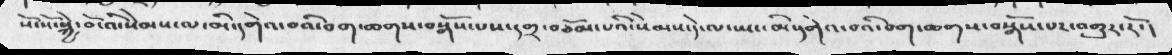སོ་སོ་སྐྱེ་བོ་འི་སེམས་ལ་མི་དགེའ་བའི་བག་ཆགས་བསྒོས་པས་དགྲ་བཅོམ་པའི་སེམས་དེ་ལ་ཡང་མི་དགེའ་བའི་བག་ཆགས་བསྒོས་པར་འགྱུར་རོ་།
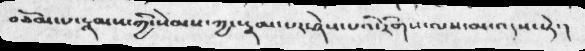བཅོམ་པ་རྣམས་ཀྱི་སེམས་ཀྱང་རྣམ་པར་ཤེས་པའི་རིགས་ལས་མ་འདས་སྟེ་།
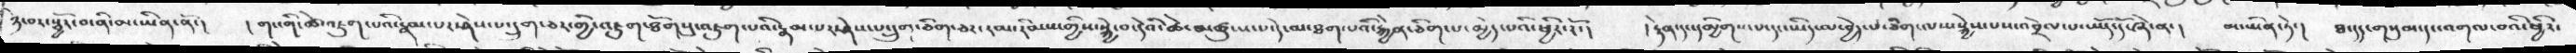ཉེ་བར་སྦྱོར་བ་ནི་མ་ཡིན་ནོ་།   ། གང་གི་ཚེ་འཇུག་པའི་རྣམ་པར་ཤེས་པ་དྲུག་ཅར་གྱི་འཇུག་ཐོགསུ་འཇུག་པའི་རྣམ་པར་ཤེས་པ་དྲུག་ཅིག་ཅར་ངམ་རིམས་གྱིས་སྐྱེ་བ་དེའི་ཆེ་བ་མཚུངས་པ་དེ་མ་ཐག་པའི་རྐྱེན་ཅིག་པ་མྱེད་པའི་ཕྱིར་རོ་།   ། རྟེན་དང་དམྱིགས་པ་དང་ཡིད་ལ་བྱེད་པ་ཅིག་ལས་སྐྱེས་པས་འབྲེལ་པ་ཡོད་དོ་ཞེ་ན་།   མ་ཡིན་ཏེ་།   ཐ་དད་གསུམ་དང་འགལ་བའི་ཕྱིར་
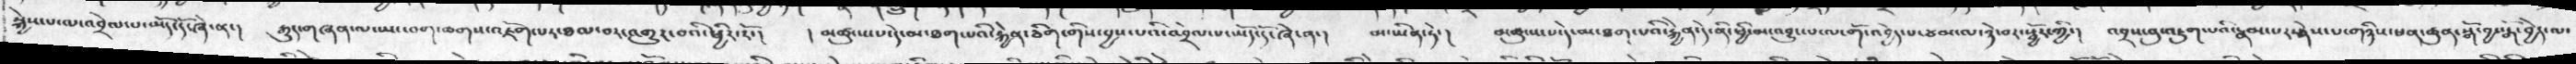སྐྱེས་པ་ལ་འབྲེལ་པ་མེད་དོ་ཞེ་ན་།   རྒྱུད་གཞན་ལ་ཡང་བག་ཆགས་འཇོག་པར་ཐལ་བར་འགྱུར་བའི་ཕྱིར་རོ་།   །  མཚུངས་པ་དེ་མ་ཐག་པའི་རྐྱེན་ཅིག་གིས་བྱས་པའི་འབྲེལ་པ་ཡོད་དོ་ཞེ་ན་།   མ་ཡིན་ཏེ་།   མཚུངས་པ་དེ་མ་ཐག་པའི་རྐྱེན་དེ་ནི་ཕྱི་མ་འབྱུང་པ་ལ་གོ་འབྱེད་པ་ཙམ་ལ་ཉེ་བར་སྦྱོར་གྱི་།  འབྲས་བུ་འཇུག་པའི་རྣམ་པར་ཤེས་པ་གཉིས་ཕན་ཚུན་སྒོ་བྱ་སྒོ་བྱེད་ལ་
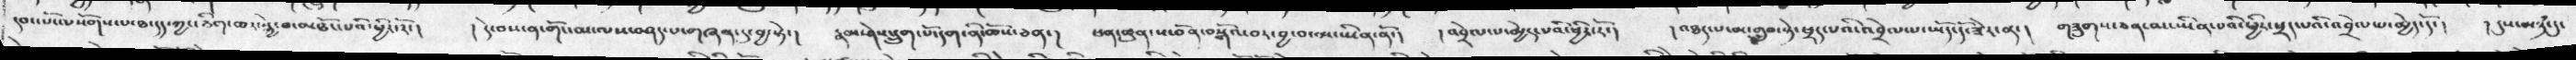དབང་པོ་ལསོགས་པ་ཐ་དད་ཀྱང་ཅིག་ཆར་སྐྱེ་བ་མཐོང་པའི་ཕྱིར་རོ་།   །  དེ་བས་ན་གོང་མ་ལས་བཤད་པ་གཞན་དུ་བྱ་སྟེ་།   རྣམ་ཤེས་དྲུག་པོ་དག་ནི་ཆོས་ཅན་།   ཕན་ཚུན་ས་བོན་བསྒོའ་བར་བྱ་བ་ལ་ཡིན་ནོ་།  ། འབྲེལ་པ་མྱེད་པའི་ཕྱིར་རོ་།   ། འཐད་པ་མ་གྲུབ་སྟེ་ཕྲད་པའི་འབྲེལ་པ་ཡོད་དོ་ཟེར་ན་།    གཟུགས་ཅན་མ་ཡིན་པའི་ཕྱིར་ཕྲད་པའི་འབྲེལ་པ་མྱེད་དོ་།   ། དུས་མཉཾ་དུ་
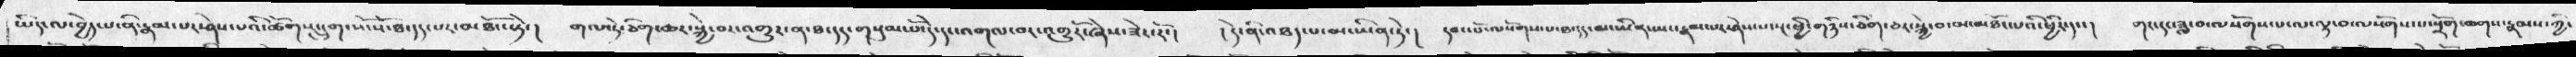ཡིད་ལ་བྱེད་པ་ནི་རྣམ་པར་ཤེས་པའི་ཚོགས་དྲུག་སོ་སོ་ཐ་དད་པར་མཐོང་སྟེ་།    གལ་ཏེ་ཅིག་ཆར་སྐྱེ་བར་འགྱུར་ན་ཐ་དད་གསུམ་པོ་དེ་དང་འགལ་བར་འགྱུརོ་ཞེས་ཟེར་རོ་།   ། དེ་ནི་འཐད་པ་མ་ཡིན་ཏེ་།  དབང་པོ་ལསོགས་པ་ཐ་དད་མ་ཡིན་ཡང་རྣམ་པར་ཤེས་པ་སྔ་ཕྱི་གཉིས་ཅིག་ཆར་སྐྱེ་བ་མ་མཐོང་པའི་ཕྱིར་དང་།    གང་དང་ཟླ་བ་ལསོགས་པ་ལ་ལྟ་བ་ལསོགས་པ་སྲོག་ཆགས་རྣམས་ཀྱི་
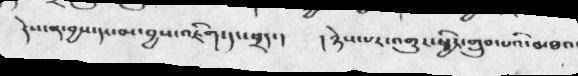དེས་ན་བྱས་དང་མ་བྱས་འཇིག་དང་ཕྲད་།   །  ཉེས་པར་འགྱུར་ཕྱིར་གྲུབ་པའི་མཐའ་
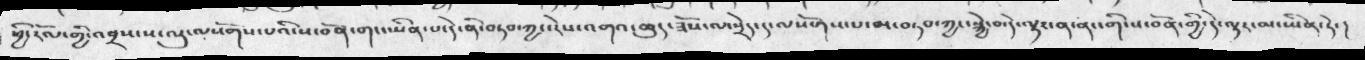ཕྱི་རོལ་གྱི་འབྲས་ས་ལུ་ལསོགས་པའི་ས་བོན་གང་ཡིན་པ་དེ་ནི་བཏབ་ཀྱང་རེས་འགའ་ཆུར་ཟོས་ལ་སྲེད་ད་ལསོགས་པ་མ་བཏབ་ཀྱང་སྐྱེ་བ་དེ་ལྟར་ན་ནང་གི་ས་བོན་གྱི་དེ་ལྟར་མ་ཡིན་ཏེ་།
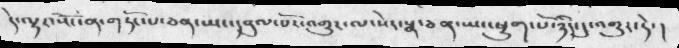དེ་ལྟར་སོང་ན་གདོང་པ་ཅན་ཡང་དབུལ་པོར་འགྱུར་ལ་སེར་སྣ་ཅན་ཡང་ཕྱུག་པོ་ཉིད་དུ་འགྱུར་ཏེ་།
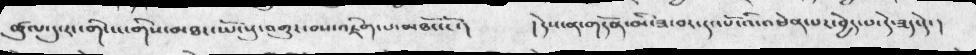ཚུལ་དུ་རང་གི་ངང་གིས་མཐར་ཡོངསུ་འགྱུར་བས་འཇིག་པ་མཐོང་ངོ་།     །དེས་ན་གདོན་མི་ཟ་བར་དང་པོ་འི་འཕེན་པར་བྱེད་པ་དེ་ཟད་དེ་།
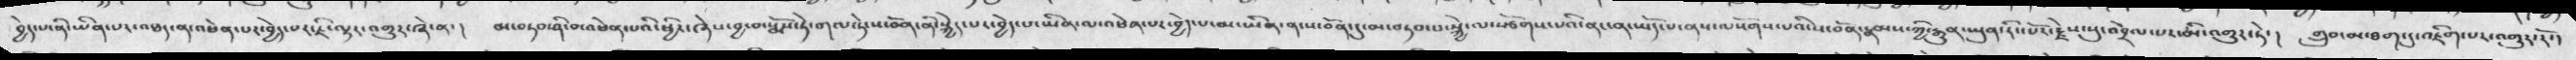བྱེད་པ་ནི་ཡིན་པར་འཐད་ན་འཕེན་པར་བྱེད་པར་ཇི་ལྟར་འགྱུར་ཞེ་ན་ །    མ་བཏབ་ཤི་བ་འཕེན་ཕྱིར་པའི་ཞེས་བྱ་བ་སྨོས་ཏེ་གལ་ཏེ་ས་བོན་ནི་སྐྱེད་པར་བྱེད་པ་ཡིན་ལ་འཕེན་པར་བྱེད་པ་མ་ཡིན་ན་ས་བོན་དུ་མ་བཏབ་པ་སྐྱེ་ལ་སཅོགས་པའི་ནང་ན་ཡོད་པ་ནས་ལསོགས་པའི་ས་བོན་རྣམས་ཀྱི་རྒྱུུན་ཡུན་རིང་པོར་རྗེས་སུ་འབྲེལ་པར་མི་འགྱུར་ཏེ་།   གྲུབ་མ་ཐག་དུ་འཇིག་པར་འགྱུར་རོ་།
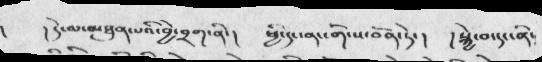།   དེ་ལ་མཐུན་པའི་བྱེ་བྲག་ནི་ །   ཕྱི་དང་ནང་གི་ས་བོན་ཏེ་།   །  སྐྱེ་བ་དང་ནི་
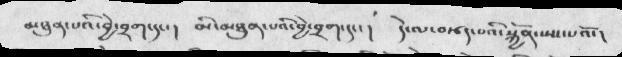མཐུན་པའི་བྱེ་བྲག་དང་ །   མི་མཐུན་པའི་བྱེ་བྲག་དང་ །    དེ་ལ་བརྩད་པའི་སྐྱོན་སྤང་པའོ་ །
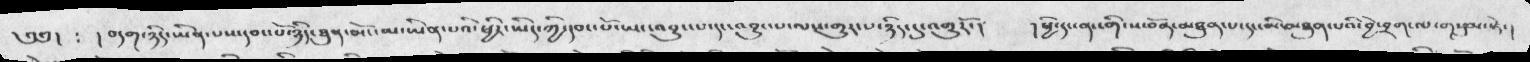༄༅།  ༴  །  བདག་ཉིད་ཡིན་པས་དབང་པོ་ཉིད་ཐུན་མོང་མ་ཡིན་པའི་ཕྱིར་ཡིད་ཀྱི་དབང་པོ་ཡང་འབྱུང་པ་དང་འབྱུང་པ་ལས་གྱུར་པ་ཉིད་དུ་འགྱུརོ་།   །ཕྱི་དང་ནང་གི་ས་བོན་མཐུན་པ་དང་མི་མཐུན་པའི་བྱེ་བྲག་ལ་གསུམ་སྟེ་།
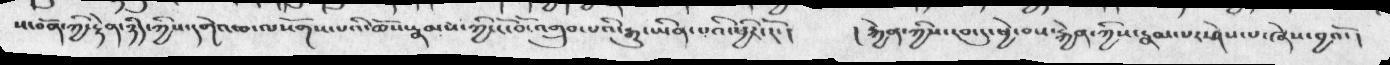ས་བོན་ཀྱི་རྟེན་ཉིད་ཀྱིས་དགེའ་བ་ལསོགས་པའི་ཆོས་རྣམས་ཀྱི་ངོ་བོ་འགྲུབ་པའི་རྒྱུ་ཡིན་པའི་ཕྱིར་རོ་།  ། རྐྱེན་ཀྱིས་རབ་དུ་ཕྱེ་བས་རྐྱེན་ཀྱི་རྣམ་པར་ཤེས་པ་ཞེས་བྱའོ་།
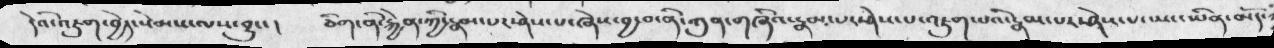དེའི་འཇུག་བྱེད་སེམས་ལས་བྱུང་ང།   ཅིག་ནི་རྐྱེན་ཀྱི་རྣམ་པར་ཤེས་པ་ཞེས་བྱ་བ་ནི་ཀུན་གཞིའ་རྣམ་པར་ཤེས་པ་འཇུག་པའི་རྣམ་པར་ཤེས་ཡང་ཡིན་མོད་
